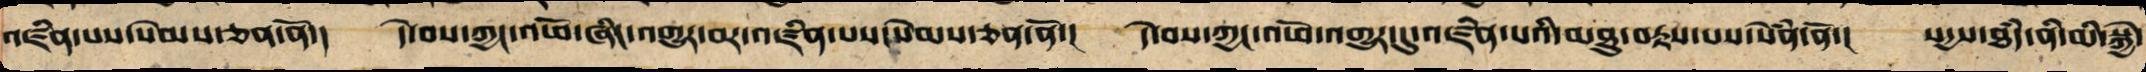འཛིན་པས་སེམས་ཅན་ནོ་། དེ་བས་ཀྱང་འཕོ་ཞིང་འགྱུར་བར་འཛིན་པས་སེམས་ཅན་ནོ་། དེ་བས་ཀྱང་འཕོ་འགྱུར་དུ་འཛིན་པའི་མཐུ་བརྟས་པས་སེཾན་ནོ་། སདྱས་ཐཾད་ནི་མི་སྐྱེ་
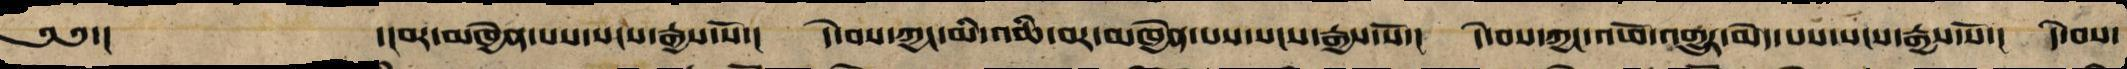༄༅་། ་།བར་མཁྱེན་པས་སངས་རྒྱས་སོ་། དེ་བས་ཀྱང་མི་འཆི་བར་མཁྱེན་པས་སངས་རྒྱས་སོ་། དེ་བས་ཀྱང་འཕོ་འགྱུར་མེད་པས་སངས་རྒྱས་སོ་། དེ་བས་
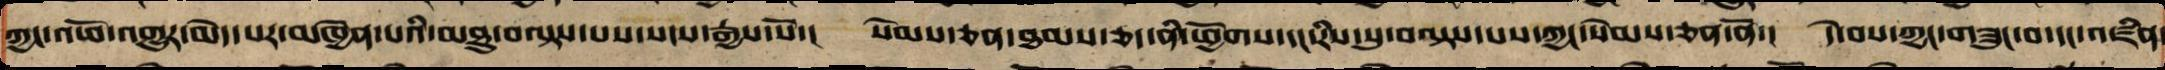ཀྱང་འཕོ་འགྱུར་མེད་པར་མཁྱེན་པའི་མཐུ་བརྟས་པས་སངས་རྒྱས་སོ་། སེམས་ཅན་ཐམས་ཅད་ནི་ཕྱོགས་དང་རིས་སུ་བལྟས་པས་ཀྱང་སེམས་ཅན་ནོ་། དེ་བས་ཀྱང་གཟུང་བ་དང་འཛིན་
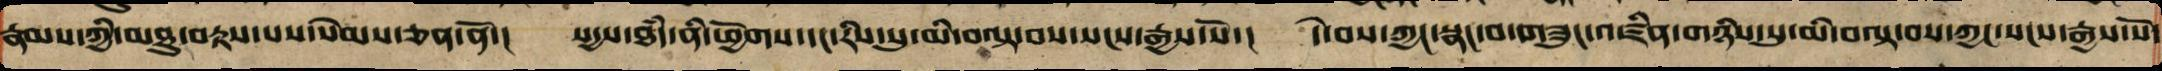རྣམས་ཀྱི་མཐུ་བརྟས་པས་སེམས་ཅན་ནོ་། སངས་རྒྱས་ཐཾད་ནི་ཕྱོགས་དང་རིས་སུ་མི་བལྟ་བས་སངས་རྒྱས་སོ་། དེ་བས་ཀྱང་སྣང་བ་གཟུང་འཛིན་གཉིས་སུ་མི་བལྟ་བས་ཀྱང་སངས་རྒྱས་སོ་
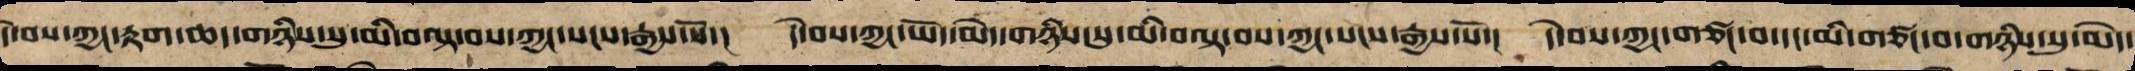དེ་བས་ཀྱང་རྟག་ཆད་གཉིས་སུ་མི་བལྟ་བས་ཀྱང་སངས་རྒྱས་སོ་། དེ་བས་ཀྱང་ཡོད་མེད་གཉིས་སུ་མི་བལྟ་བས་སངས་རྒྱས་སོ་། དེ་བས་ཀྱང་གཙང་བ་དང་མི་གཙང་བ་གཉིས་སུ་མེད་
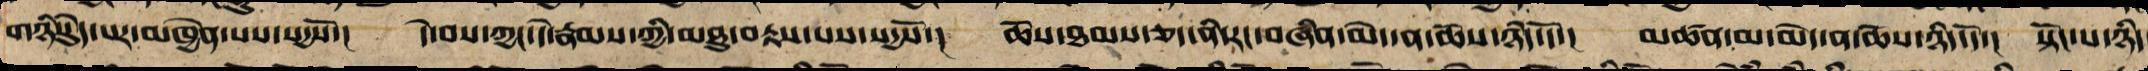གཉིསེུད་པར་མཁྱེན་པས་སདྱསོ་། དེ་བས་ཀྱང་དེ་རྣམས་ཀྱི་མཐུ་བརྟས་པས་སདྱསོ་། ཆོས་ཐམས་ཅད་ནི་རང་བཞིན་མེད་ན་ཆོས་ཉིད་དོ་། མཚན་མ་མེད་ན་ཆོས་ཉིད་དོ་། སྟོང་པ་ཉིད
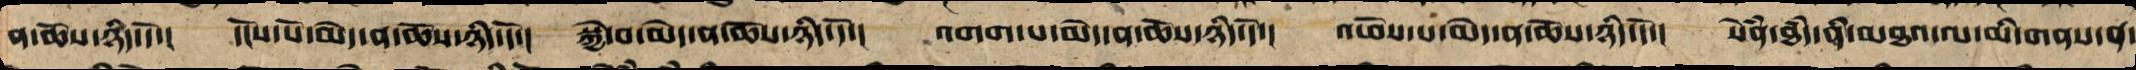ན་ཆོས་ཉིད་དོ་། དངོས་པོ་མེད་ན་ཆོས་ཉིད་དོ་། སྐྱེ་བ་མེད་ན་ཆོས་ཉིད་དོ་། འགག་པ་མེད་ན་ཆོས་ཉིད་དོ་། འཕོས་པ་མེད་ན་ཆོས་ཉིད་དོ་། སེཾན་ཐཾད་ནི་མཐའ་ལ་མི་གནས་ན་
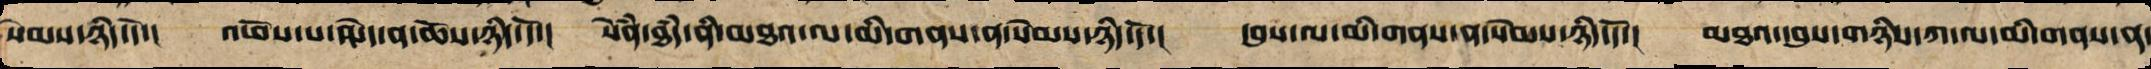སེམས་ཉིད་དོ་། འཕོས་པ་མེད་ན་ཆོས་ཉིད་དོ་། སེཾན་ཐཾད་ནི་མཐའ་ལ་མི་གནས་ན་སེམས་ཉིད་དོ་། དབུས་ལ་མི་གནས་ན་སེམས་ཉིད་དོ་། མཐའ་དབུས་གཉིས་ཀ་ལ་མི་གནས་ན་
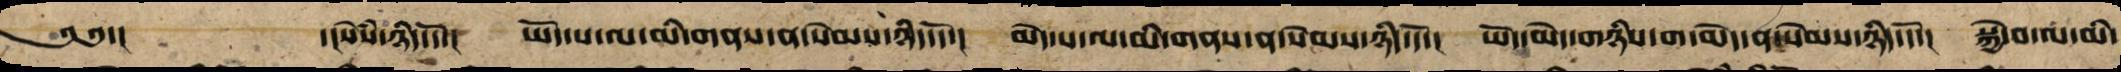༄༅་། ་།སེམས་ཉིད་དོ་། ཡོད་པ་ལ་མི་གནས་ན་སེམས་ཉིད་དོ་། མེད་པ་ལ་མི་གནས་ན་སེམས་ཉིད་དོ་། ཡོད་མེད་གཉིས་ཀ་མེད་ན་སེམས་ཉིད་དོ་། སྐྱེ་བ་ལ་མི་
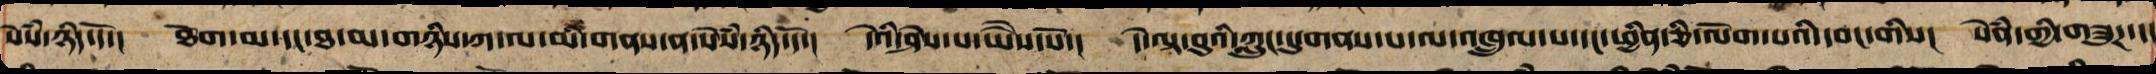སེཾས་ཉིད་དོ་། ཐོག་མ་དང་ཐ་མ་གཉིས་ཀ་ལ་མི་གནས་ན་སེམས་ཉིད་དོ་། དེའི་ཤེས་པ་ཡཻས་སོ་། དེ་ལྟ་བུའི་ཀླུང་དུ་གནས་པ་ལ་འཁྲུལ་པ་དང་ཕྱིན་ཅི་ལོག་པའི་དབང་གིས། སེཾན་གྱི་གཟུཌ་དང
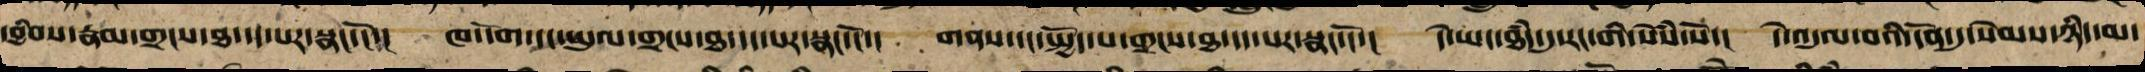དབྱིབས་རྣམ་གྲངས་ཐ་དད་པར་སྣང་ངོ་། ཁ་དོག་དང་ཡུལ་གྲངས་ཐ་དད་པར་སྣང་ངོ་། གནས་དང་སྤྱོད་པ་གྲངས་ཐ་དད་པར་སྣང་ངོ་། དེ་ཡང་ཐཾད་དུ་རང་གི་སེཾས་སོ་། དེ་འདུལ་བའི་དོན་དུ་སེམས་ཉིད་མ་
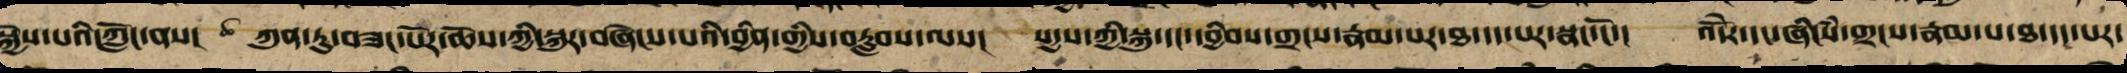སྐྱེས་པའི་ཀློང་ནས། ཀུན་ཏུ་བཟང་པོ་ཆོས་ཀྱི་སྐུར་བཞེངས་པའི་བྱིན་གྱིས་རླབས་ལས། སདྱས་ཀྱི་སྐུ་དང་དབྱིབས་གྲངས་རྣམ་པ་ཐ་དད་པར་སྣང་ངོ་། འོདེར་དང་ཞིངཾས་གྲངས་རྣམ་པ་ཐ་དད་པར་
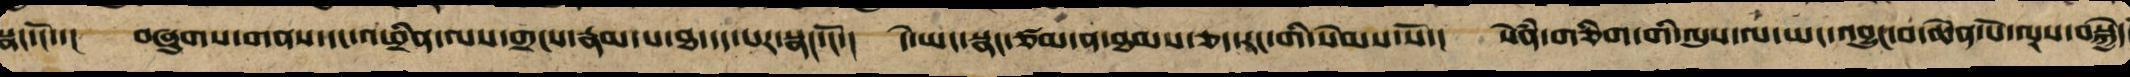སྣང་ངོ་་། བཞུགས་གནས་དང་ཕྲིན་ལས་གྲངས་རྣམ་པ་ཐ་དད་པར་སྣང་ངོ་། དེ་ཡང་སྣང་ཙམ་ན་ཐམས་ཅད་རང་གི་སེམས་སོ་། སེཾན་གཅིག་གི་ལུས་ལ་ཡང་འབྱུང་བ་ཆེན་པོ་ལྔས་བསྐྱེད
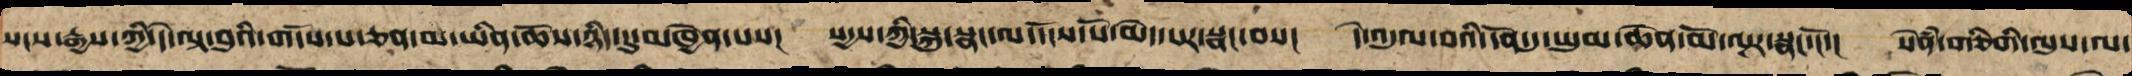སངས་རྒྱས་ཀྱིས་དེ་ལྟ་བུའི་གདོས་པ་ཅན་མ་ཡིན་གྱི་ཆོས་ཉིད་དུ་མཁྱེན་པས། སངས་རྒྱས་ཀྱི་སྐུ་སྣང་ལ་དངོས་པོ་མེད་པར་བྱུང་བས། དེ་འདུལ་བའི་དོན་དུ་ཡུམ་ཆེན་མོ་ལྔར་སྣང་ངོ་། སེཾན་གཅིག་གི་ལུས་ལ་
